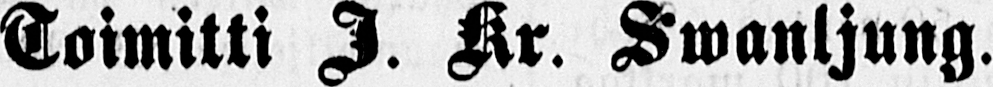Toimitti I. Kr. Swanljung.
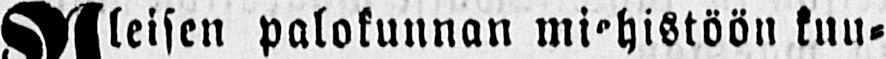Yleisen palokunnan miehistöön kuu-
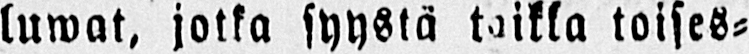luwat, jotka syystä taikka toises-
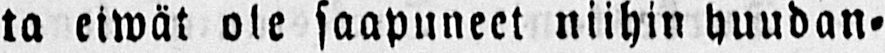ta eiwät ole saapuneet niihin huudan-
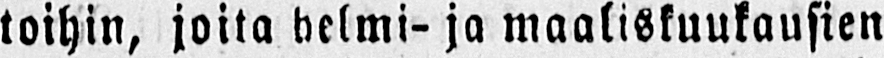toihin, joita helmi- ja maaliskuukausien
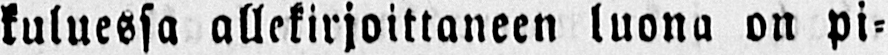kuluessa allekirjoittaneen luona on pi-
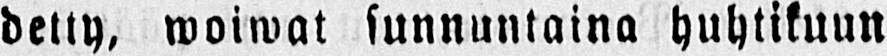detty, woiwat sunnuntaina huhtikuun
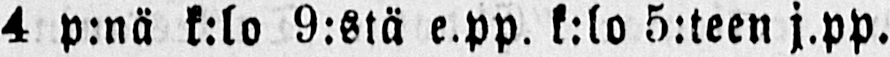4 p:nä k:lo 9:stä e.pp. k:lo 5:teen j.pp.
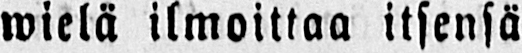wielä ilmoittaa itsensä
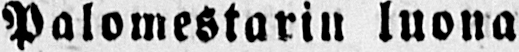Palomestarin luona
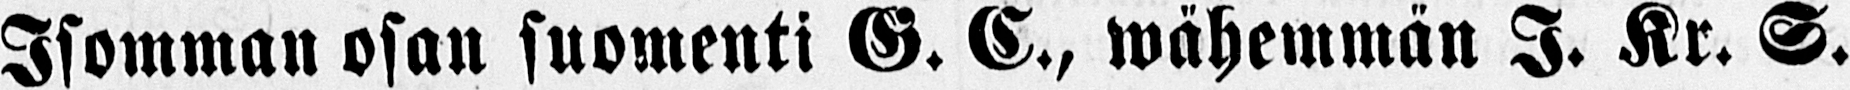Isomman osan suomenti G. C., wähemmän I. Kr. S.
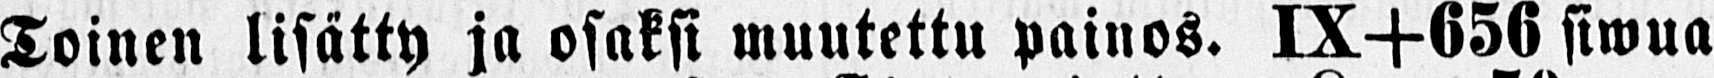Toinen lisätty ja osaksi muutettu painos. IX+656 siwua
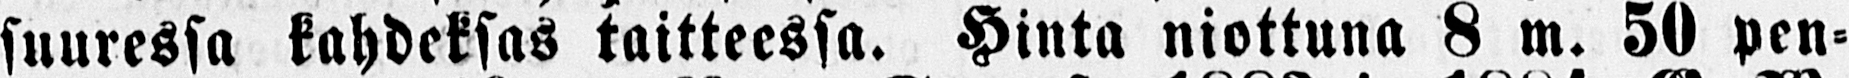suuressa kahdeksas taitteessa. Hinta niottuna 8 m. 50 pen-
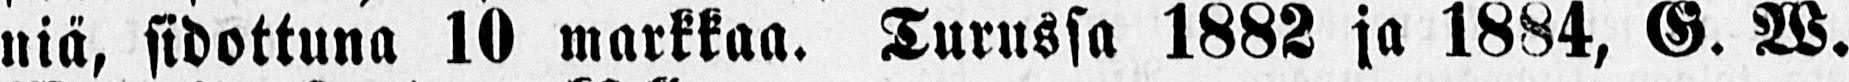niä, sidottuna 10 markkaa. Turussa 1882 ja 1884, G. W.
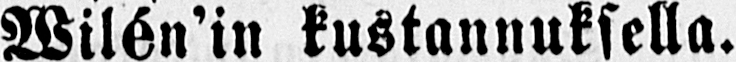Wilén'in kustannuksella.
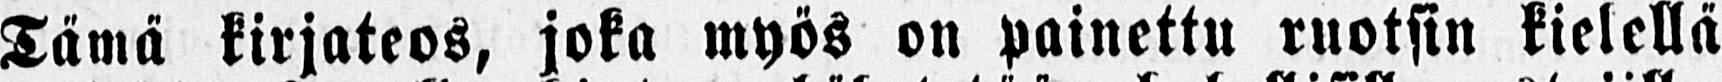Tämä kirjateos, joka myös on painettu ruotsin kielellä
